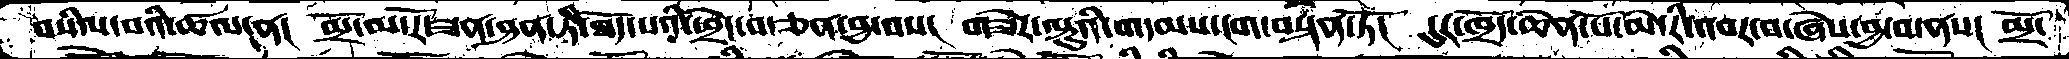བསིལ་བའི་ཚལ་ན།  མྲོ་མ་རོ་ཟན་ཤན་ཏི་ཐོད་པའི་ཕྲེང་བ་ཅན་བྱ་བས།   གཟེར་ལྟུའི་གདམས་ངག་བསྟན་ཏོ།   དུར་ཁྲོད་ཆེན་པོ་མེ་རི་འབར་བ་ཞེས་བྱ་བ་ནས།  མྲོ་
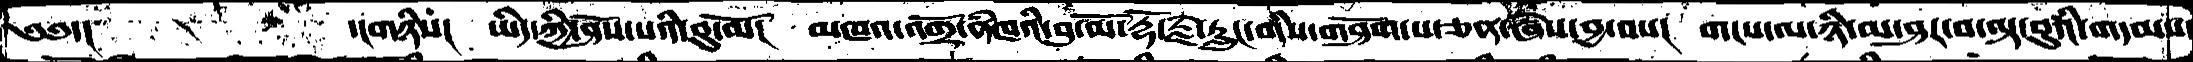༄༅་།        དང་གཉིས།    ཡིད་ཀྱི་ཤེས་པའི་བུ་མོ།    མཁའ་འགྲོ་ནཾཁའི་བུ་མོ་རྡོ་རྗེ་རླུང་གིས་གཤོག་པ་ཅན་ཞེས་བྱ་བས།   གངས་ལ་ཉི་མ་ཤར་བ་ལྟ་བུའི་གདམས་
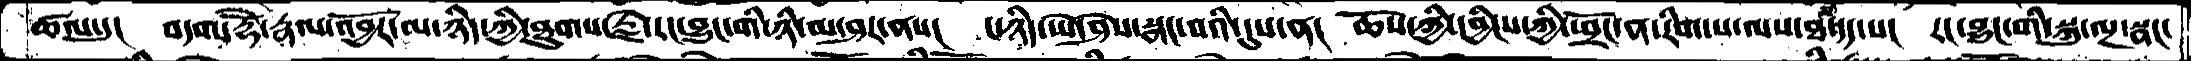ཚལ་དུ།  བདག་རྡོ་ེརྣལ་འབྱོར་ལ་ཉིད་ཀྱི་ཐུགས་རྗེ་རང་བྱུང་གི་ཉི་མ་ཤར་ནས།  ང་ཉིད་ཡེ་ཤེས་སྣང་བའི་དུས་ན།  ཆོས་ཀྱི་དབྱིངས་ཀྱི་ཕྲོང་ན་རིག་པ་ལས་ཐ་དད་པ།  རང་བྱུང་གི་སྐུ་ལྔ་སྣང་
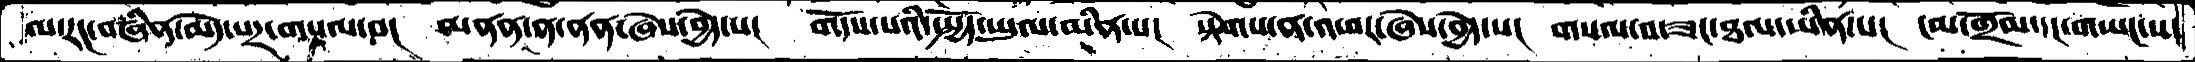ལ་རང་བཞིན་མེད་པར་གསལ་བ།  མནན་ན་ནན་ཞེས་བྱེད་པ།  གོདས་པའི་སྤྱོད་ཡུལ་མིན་པ།  སྟེགས་ན་འཕར་ཞེས་བྱེད་པ།  གསལ་བ་ཟང་ཐལ་ཡིན་པ།  ངམ་གྲོམ་དང་གཡང་ས་
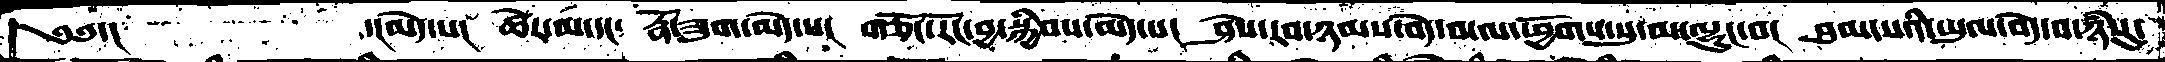༄༅་།      ་།མེད་པ།  ཚེར་མ་དང་  རྣོ་ཟུག་མེད་པ།   གཅོང་རོང་བྱ་སྐྱིབས་མེད་པ།  ཤེས་རབ་ཉམས་བདེ་བལ་ཕྱོགས་སུ་མ་ལྷུང་བ།  བུམ་པའི་ཡུལ་བདེ་བ་ཉཾསུ་
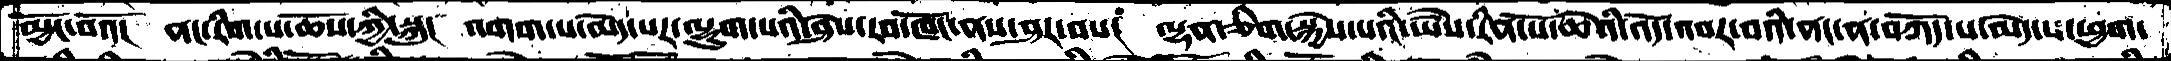མྱོང་བའོ།  ནང་རིག་པ་ཆོས་ཀྱི་སྐུ།  འགག་པ་མེད་པརལྷུག་པའི་ཤེས་རབ་ཁོང་ནས་ཤར་བས།  ལྷན་ཅིག་སྐྱེས་པའི་ཡཻས་རིན་པོ་ཆེའི་འོད་འབར་བའི་ནང་ན་བཀོད་པ་མེད་པ་ཕྱག་
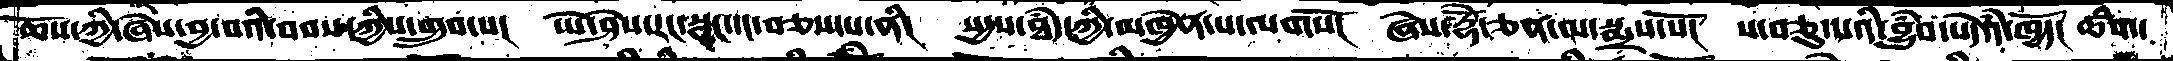ཆོས་ཀྱི་ཞེས་བྱ་བའི་བབས་ཀྱིས་གྲུབ་པ།   ཡེ་ཤེས་རང་སྣང་དང་བཅས་པ་ནི།  སདྱས་ཐཾད་ཀྱི་མཁྱེན་པ་ལགསོ།  ཞེས་རྡོེ་ཅན་ལ་སྨྲས་སོ།  ས་བཅུ་པའི་བྱུཾབ་སེདའཾ་ཁྱོད།  ཚིག་
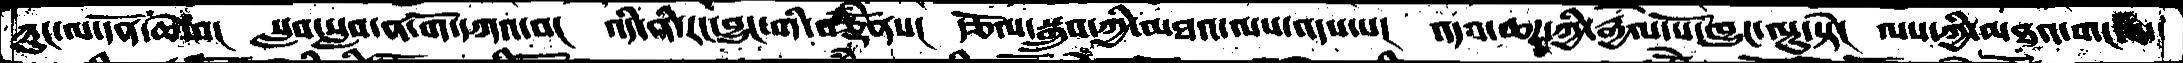ཉུང་ལ་དོན་ཆེ་བ།  སླབ་སླབ་ན་གོ་དཀའ་བ།  འདི་ནི་རང་བྱུང་གི་བཅྡོཾནས།  རྩོལ་སྒྲུབ་ཀྱི་མཐའ་ལས་འདས་པ།  འདབ་ཆཌ་ཀྱི་རྒྱལ་པོ་ཁྱུང་ལྟུ་སྟེ།  ལས་ཀྱི་མཐའ་གང་
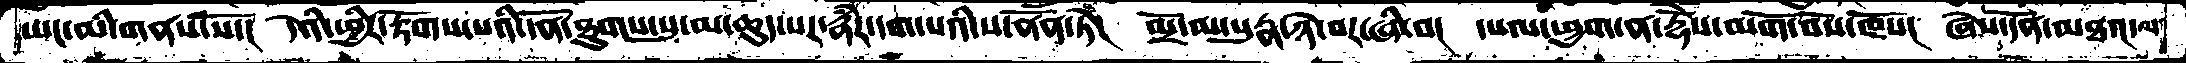ཡང་མི་གནས་སོ་།  དེའི་ཕྱིར་རྟོགས་པའི་དོན་ཐུགས་སུ་མ་ཆུད་པར་རྣཾར་དག་པའི་ས་ནནོ་ཏེ།  མྲོ་མ་པུརྣ་ཉེ་བར་ཞི་བ།  དཔལ་ཕྱག་ན་རྡོེས་མགོ་བོས་ཁོས།  ཞེས་དོན་མཐའ་ལ་
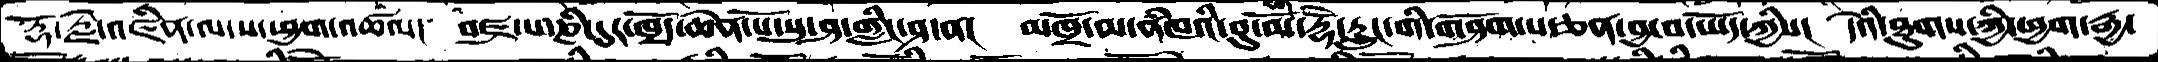རྡོ་རྗེ་འཛིན་ལ་ས་ཕྱག་འཚལ།  བཛྲ་པ་ཎི་དུར་ཁྲོད་ཆེན་པོ་པུ་ཤ་གླིང་ཤ་ན།  མཁྲོ་མ་ནཾཁའི་བུ་མོ་རྡོཻ་རླུང་གི་གཤོག་པ་ཅན་བྱ་བ་ཡོད་ཀྱིས།  དེའི་ཐུགས་ཀྱི་ཕྱག་རྒྱ་
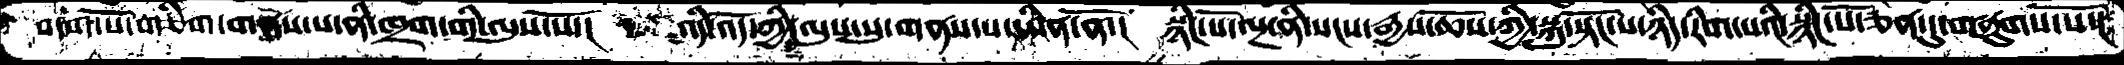བདག་པོ་གཅིག་གནས་པ་ནི་ཁྲག་གི་ལུས་སོ་།  འདི་འོད་ཀྱི་ལུས་སུ་གནས་པ་ཡིན་ནོ་།  སྙིང་པོ་ལྔ་ནི་སངས་རྒྱས་ཆོས་ཀྱི་སྐུ་སྟོང་པ་ཉིད་རིག་པའི་སྙིང་པོ་ཅན་དུ་བཞུགས་སོ་།
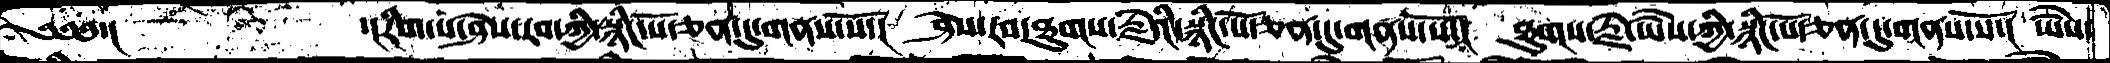༄༅༅་།        ་།རིག་པ་ཤེས་རབ་ཀྱི་སྙིང་པོ་ཅན་དུ་གནས་སོ་།  ཤེས་རབ་ཐུགས་རྗེའི་སྙིང་པོ་ཅན་དུ་གནས་སོ་།  ཐུགས་རྗེ་ཡཻས་ཀྱི་སྙིང་པོ་ཅན་དུ་གནས་སོ་།  ཡཻས་
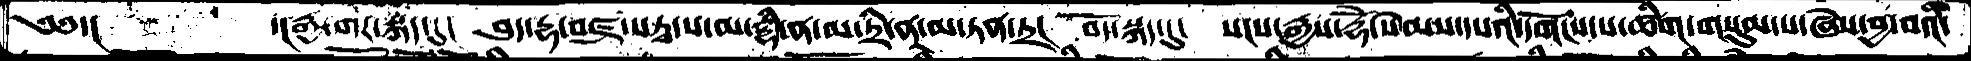༄༅་།  ་།རྒྱ་གར་སྐད་དུ།  བུད་དྷ་བཛྲ་སཏྭ་ས་མ་དྷི་ན་མ་ཏྲི་ནཱ་མ་ཏན་ཏྲ།  བོད་སྐད་དུ་  སངས་རྒྱས་རྡོཻ་སེམས་དཔའི་དགོངས་པ་ཚིག་གསུམ་པ་ཞེས་བྱ་བའི་
